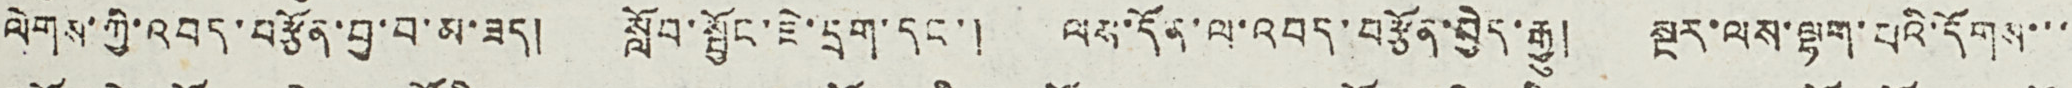ལེགས་ཀྱི་འབད་བརྩོན་བྱ་བ་མ་ཟད། སློབ་སྦྱོང་ཇེ་དྲག་དང་། ལས་དོན་ལ་འབད་བརྩོན་བྱེད་རྒྱུ། སྔར་ལས་ལྷག་པའི་དོགས་་་
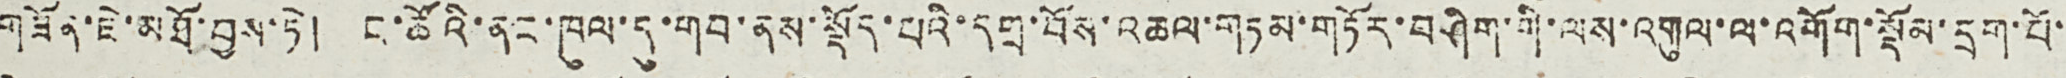གཟོན་ཇེ་མཐོ་བྱས་ཏེ། ང་ཚོའི་ནང་ཁུལ་དུ་གབ་ནས་སྡོད་པའི་དགྲ་བོས་འཆལ་གཏམ་གཏོར་བཤེག་གི་ལས་འགུལ་ལ་འགོག་སྡོམ་དྲག་པོ་
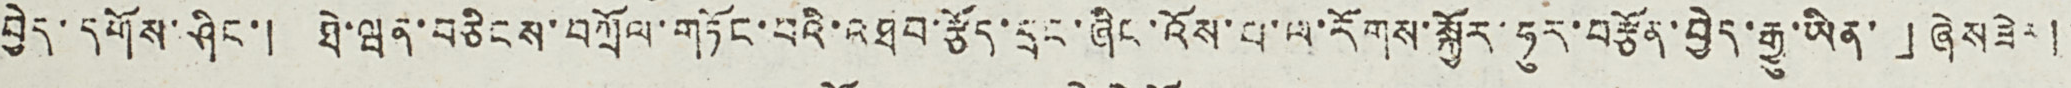བྱེད་དགོས་ཤིང་། ཐེ་ཝན་བཅིངས་བཀྲོལ་གཏོང་བའི་འཐབ་རྩོད་དྲང་ཞིང་འོས་པ་ལ་རོགས་སྐྱོར་ཧུར་བརྩོན་བྱེད་རྒྱུ་ཡོན་」ཞེས ཟེར།
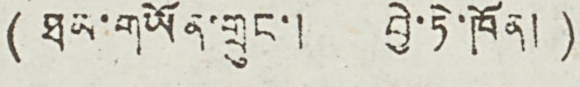(ཐམ་གཡོན་གྲུང་། བྱེ་ཏེ་ཁོན།)
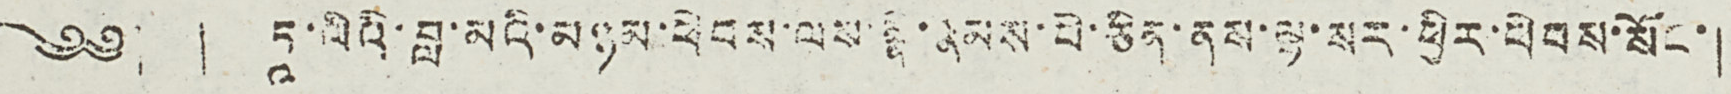༄༅། ། ཏཱ་ལིའི་བླ་མའི་མཉམ་ཕེབས་ལས་སྣེ་རྣམས་པེ་ཅིན་ནས་ལྷ་སར་ཕྱིར་ཕེབས་སོང་།
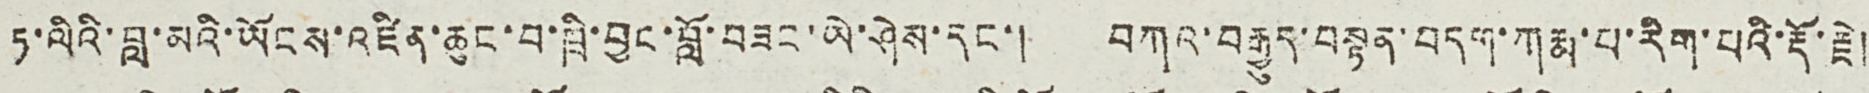ཏ་ལིའི་བླ་མའི་ཡོངས་འཛིན་ཆུང་བ་ཁྲི་བྱང་བློ་བཟང་ཡེ་ཤེས་དང་། བཀའ་བརྒྱུད་བསྟན་བདག་ཀརྨ་པ་རིག་པའི་རྡོ་རྗེ།
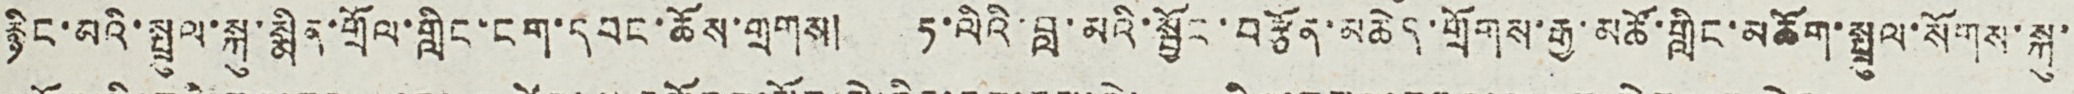རྙིང་མའི་སྤྲུལ་སྐུ་སྨིན་གྲོལ་གླིང་ངག་དབང་ཆོས་གྲགས། ཏ་ལིའི་བླ་མའི་སྦྱོང་བརྩོན་མཆེད་གྲོགས་རྒྱ་མཚོ་གླིང་མཆོག་སྤྲུལ་སོགས་སྐུ་
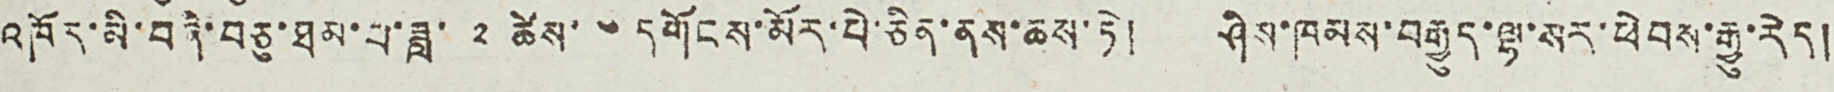འཁོར་མི་བཞི་བཅུ་ཐམ་པ་ཟླ་ ༢ ཚེས་ ༦ དགོངས་མོར་པེ་ཅིན་ནས་ཆས་ཏེ། ཤིས་ཁམས་བརྒྱུད་ལྷ་སར་ཕེབས་རྒྱུ་རེད།
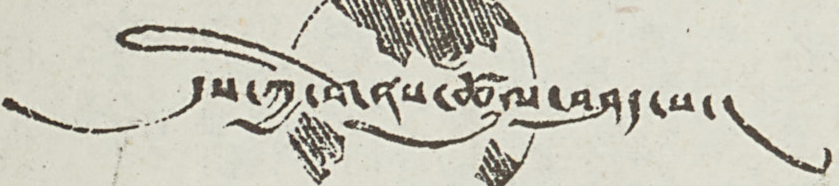དུས་ཀྱི་གནས་ཚུལ་བཤད་པ།
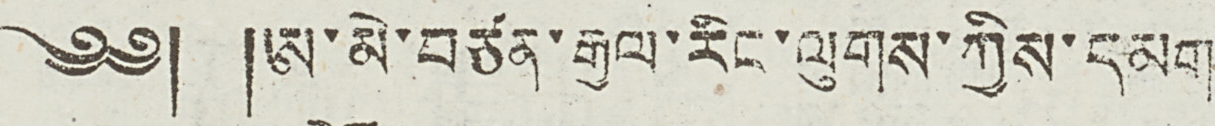༄༅། །ཨ་མེ་བཙན་རྒྱལ་རིང་ལུགས་ཀྱིས་དམག
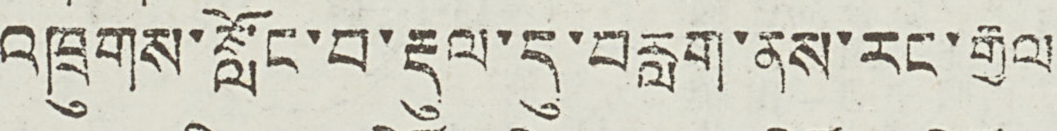འཁྲུགས་སློང་བ་རྡུལ་དུ་བརླག་ནས་རང་རྒྱལ
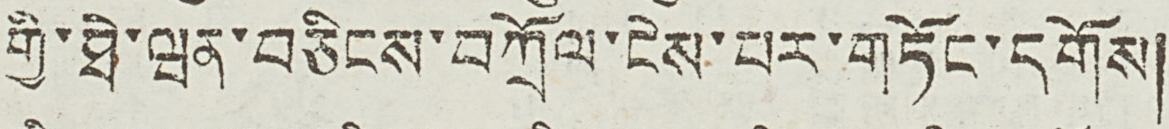གྱི་ཐེ་ཝན་བཅིངས་བཀྲོལ་ངེས་པར་གཏོང་དགོས།
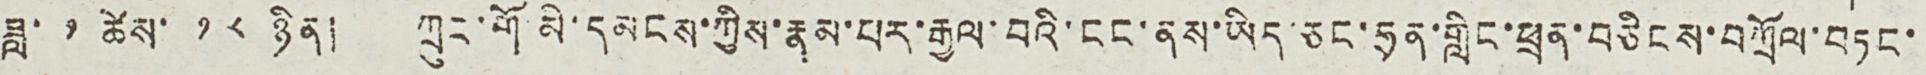ཟླ་ ༡ ཚེས་ ༡༨ ཉིན། ཀྲུང་གོ མི་དམངས་ཀྱིས་རྣམ་པར་རྒྱལ་བའི་ངང་ནས་ཡིད་ཅང་ཧྲན་གླིང་ཕྲན་བཅིངས་བཀྲོལ་བཏང་
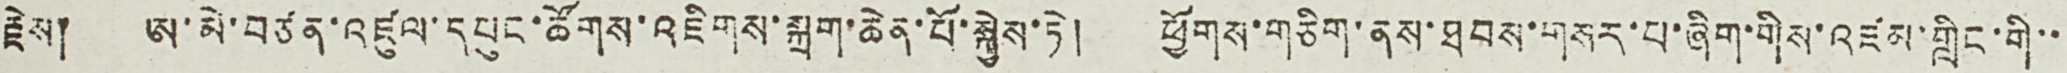རྗེས། ཨ་མེ་བཙན་འཛུལ་དཔུང་ཚོགས་འཇིགས་སྐྲག་ཆེན་པོ་སྐྱེས་ཏེ། ཕྱོགས་གཅིག་ནས་ཐབས་གསར་པ་ཞིག་གིས་འཛམ་གླིང་གི་་
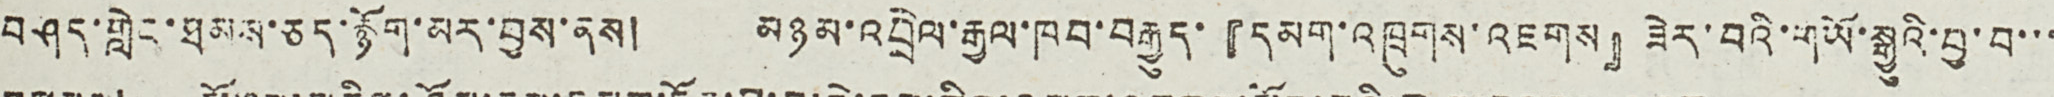བཤད་གླེང་ཐམས་ཅད་རྙོག་མར་བྱས་ནས། མཉམ་འབྲེལ་རྒྱལ་ཁབ་བརྒྱུད་『དམག་འཁྲུགས་འཇགས』ཟེར་བའི་གཡོ་སྒྱུའི་བྱ་བ་་་
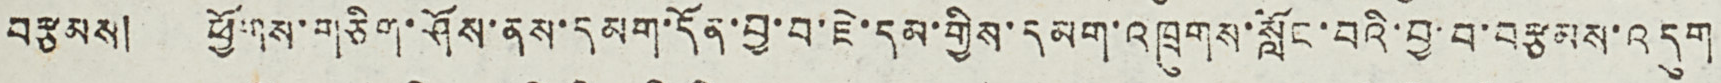བརྩམས། ཕྱོགས་གཅིག་ཤོས་ནས་དམག་དོན་བྱ་བ་ཇེ་དམ་གྱིས་དམག་འཁྲུགས་སློང་བའི་བྱ་བ་བརྩམས་འདུག
